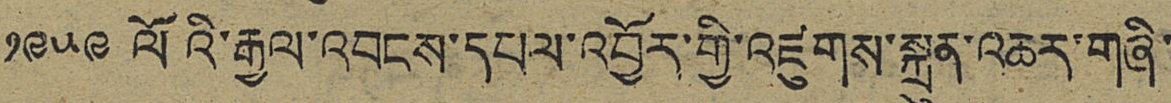༡༩༥༩ ལོའི་རྒྱལ་འབངས་དཔལ་འབྱོར་གྱི་འཛུགས་སྐྲུན་འཆར་གཞི་
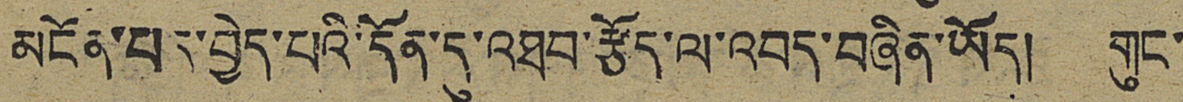མངོན་པར་བྱེད་པའི་དོན་དུ་འཐབ་རྩོད་ལ་འབད་བཞིན་ཡོད། གུང་
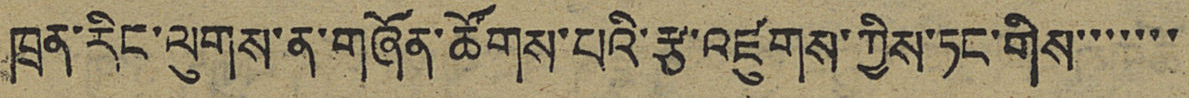ཁྲན་རིང་ལུགས་ན་གཞོན་ཚོགས་པའི་རྩ་འཛུགས་ཀྱིས་ཏང་གིས་་་་་་་
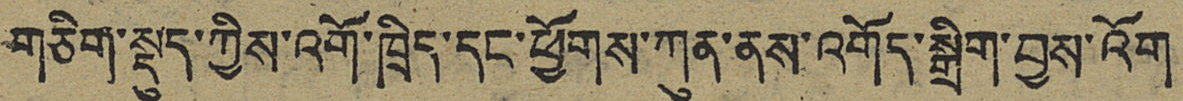གཅིག་སྡུད་ཀྱིས་འགོ་ཁྲིད་དང་ཕྱོགས་ཀུན་ནས་འགོད་སྒྲིག་བྱས་འགོ
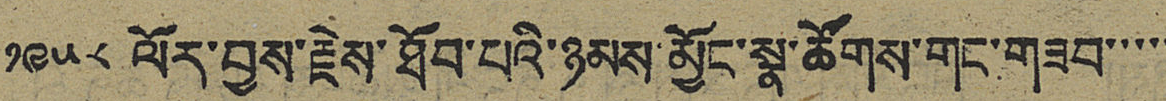༡༩༥༨ ལོར་བྱས་རྗེས་ཐོབ་པའི་ཉམས་མྱོང་སྣ་ཚོགས་གང་གཟབ་་་་་
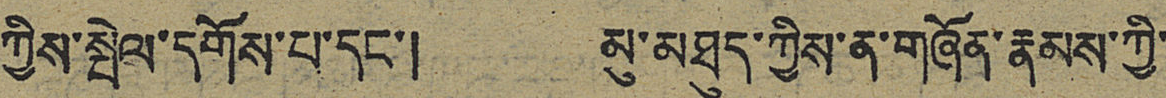ཀྱིས་སྤེལ་དགོས་པ་དང་། མུ་མཐུད་ཀྱིས་ན་གཞོན་རྣམས་ཀྱི་
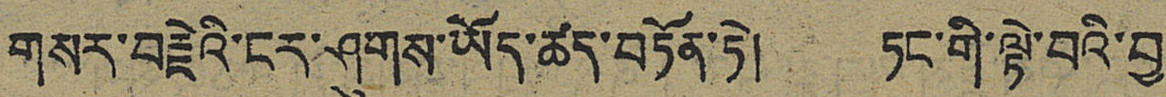གསར་བརྗེའི་ངར་ཤུགས་ཡོད་ཚད་བཏོན་ཏེ། ཏང་གི་ལྟེ་བའི་བྱ་
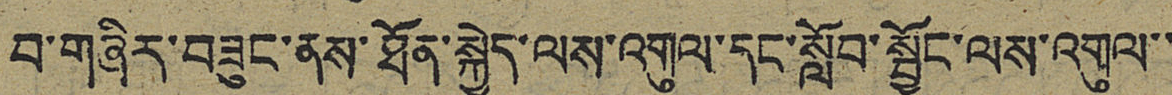བ་གཞིར་བཟུང་ནས་ཐོན་སྐྱེད་ལས་འགུལ་དང་སློབ་སྦྱོང་ལས་འགུལ་་
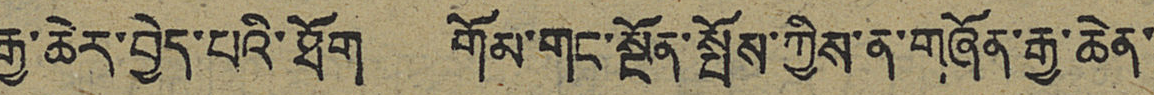རྒྱ་ཆེར་བྱེད་པའི་ཐོག གོམ་གང་སྔོན་སྤོས་ཀྱིས་ན་གཞོན་རྒྱ་ཆེན་
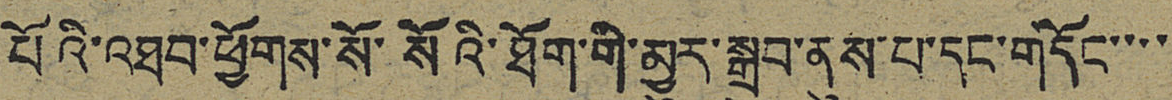པོའི་འཐབ་ཕྱོགས་སོ་སོའི་ཐོག་གི་མྱུར་སྒྲུབ་ནུས་པ་དང་གདོང་་་་
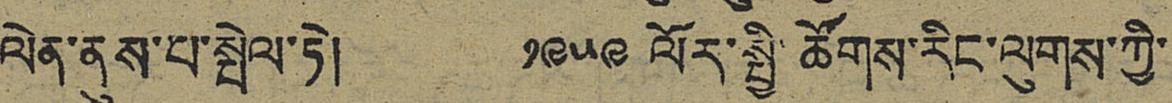ལེན་ནུས་པ་སྤེལ་ཏེ། ༡༩༥༩ ལོར་སྤྱི་ཚོགས་རིང་ལུགས་ཀྱི་
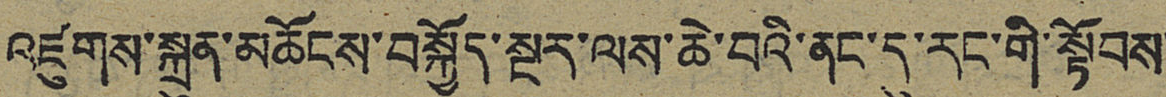འཛུགས་སྐྲུན་མཆོངས་བསྐྱོད་སྔར་ལས་ཆེ་བའི་ནང་དུ་རང་གི་སྟོབས་
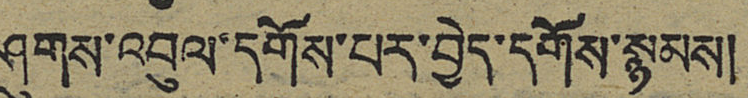ཤུགས་འབུལ་དགོས་པར་བྱེད་དགོས་སྙམས།
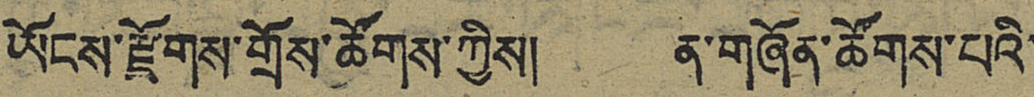ཡོངས་རྫོགས་གྲོས་ཚོགས་ཀྱིས། ན་གཞོན་ཚོགས་པའི་
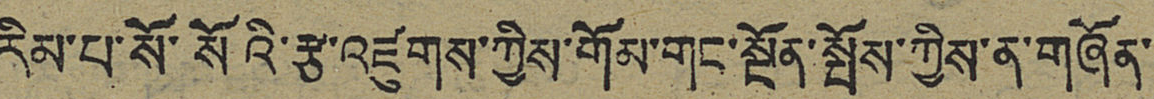རིམ་པ་སོ་སོའི་རྩ་འཛུགས་ཀྱིས་གོམ་གང་སྔོན་སྤོས་ཀྱིས་ན་གཞོན་་
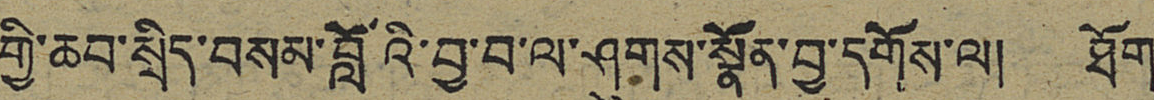གྱི་ཆབ་སྲིད་བསམ་བློའི་བྱ་བ་ལ་ཤུགས་སྣོན་བྱ་དགོས་ལ། ཐོག་
